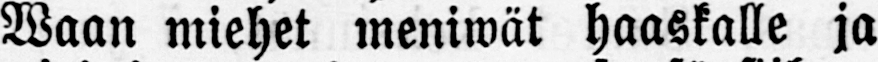Waan miehet meniwät haaskalle ja
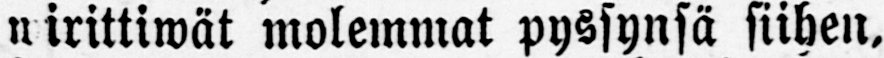wirittiwät molemmat pyssynsä siihen,
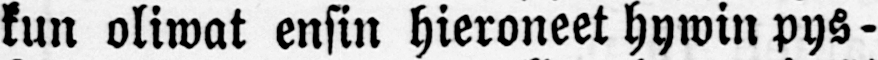kun oliwat ensin hieroneet hywin pys-
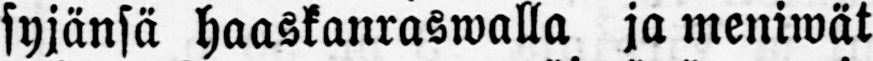syjänsä haaskanraswalla ja meniwät
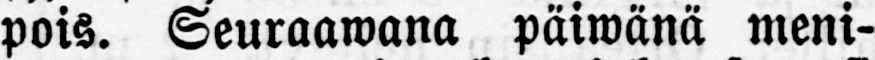pois. Seuraawana päiwänä meni-
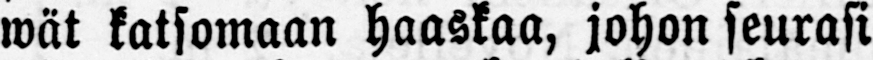wät katsomaan haaskaa, johon seurasi
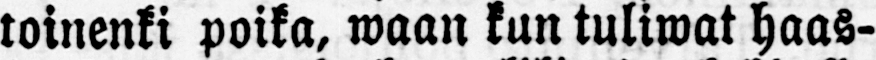toinenki poika, waan kun tuliwat haas-
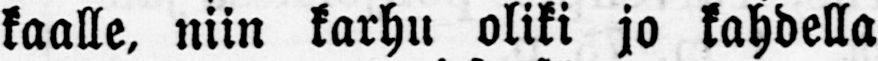kaalle, niin karhu oliki jo kahdella
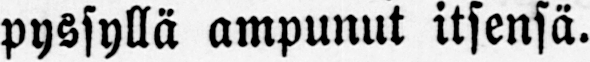pyssyllä ampunut itsensä.
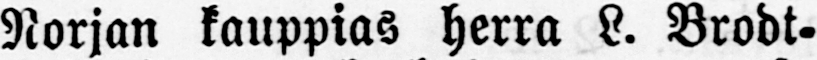Norjan kauppias herra L. Brodt-
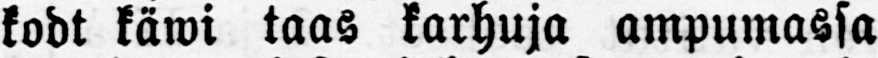kodt käwi taas karhuja ampumassa
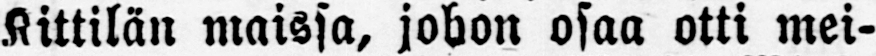Kittilän maissa, johon osaa otti mei-
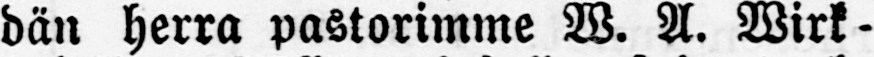dän herra pastorimme W. A. Wirk-
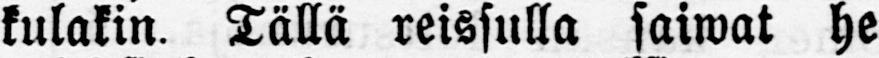kulakin. Tällä reissulla saiwat he
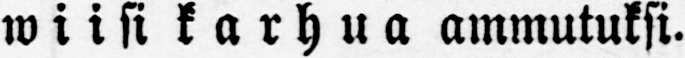wiisi karhua ammutuksi.
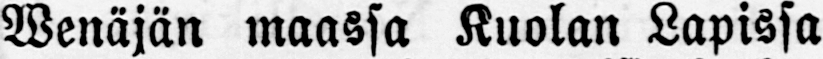Wenäjän maassa Kuolan Lapissa
